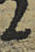2
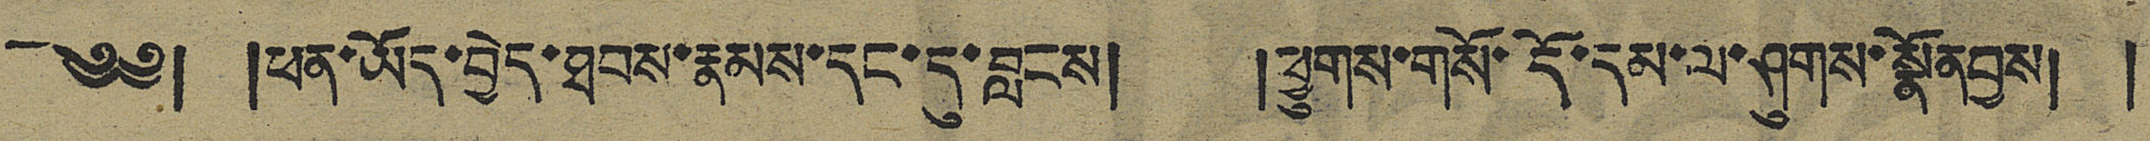༄༅། །ཕན་ཡོད་བྱེད་ཐབས་རྣམས་དང་དུ་བླངས། །ཕྱུགས་གསོ་དོ་དམ་ལ་ཤུགས་སྣོན་བྱས། །
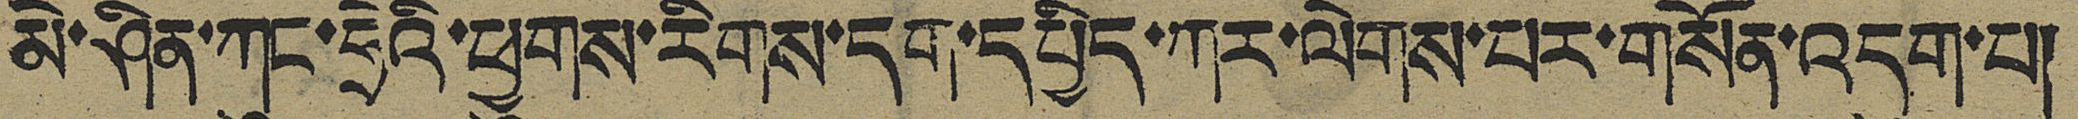མེ་ཤིན་ཀུང་ཧྲེའི་ཕྱུགས་རིགས་དག་དཔྱིད་ཀར་ལེགས་པར་གསོན་འདུག་པ།
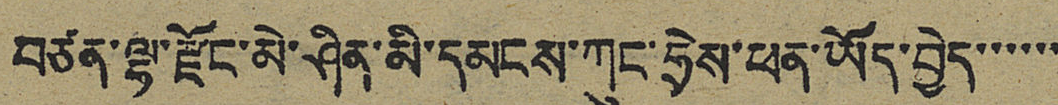བཙན་ལྷ་རྫོང་མེ་ཤིན་མི་དམངས་ཀུང་ཧྲེས་ཕན་ཡོད་བྱེད་་་་་་
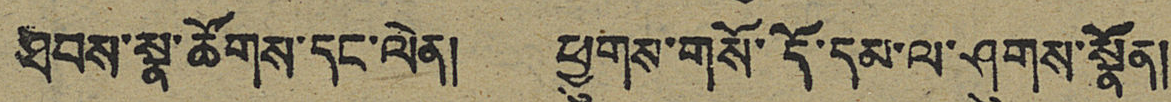ཐབས་སྣ་ཚོགས་དང་ལེན། ཕྱུགས་གསོ་དོ་དམ་ལ་ཤུགས་སྣོན།
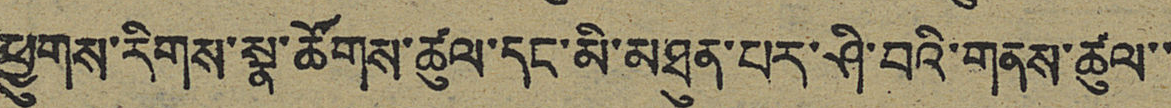ཕྱུགས་རིགས་སྣ་ཚོགས་ཚུལ་དང་མི་མཐུན་པར་ཤི་བའི་གནས་ཚུལ་་
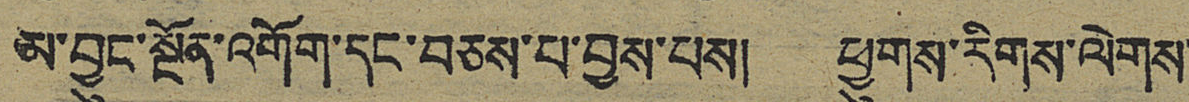མ་བྱུང་སྔོན་འགོག་དང་བཅས་པ་བྱས་པས། ཕྱུགས་རིགས་ལེགས་
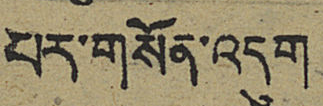པར་གསོན་འདུག
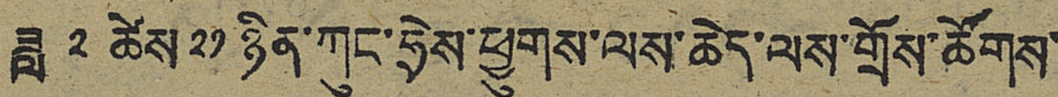ཟླ ༢ ཚེས ༢༡ ཉིན་ཀུང་ཧྲེས་ཕྱུགས་ལས་ཆེད་ལས་གྲོས་ཚོགས་
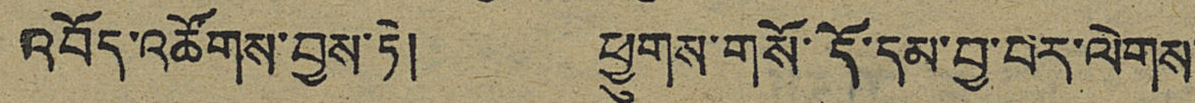འབོད་འཚོགས་བྱས་ཏེ། ཕྱུགས་གསོ་དོ་དམ་བྱ་པར་ལེགས་
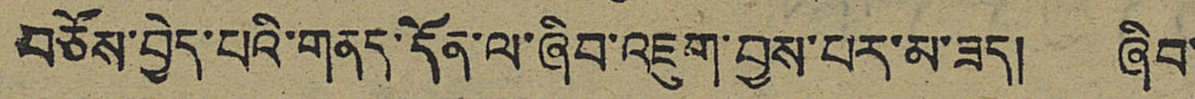བཅོས་བྱེད་པའི་གནད་དོན་ལ་ཞིབ་འཇུག་བྱས་པར་མ་ཟད། ཞིབ་
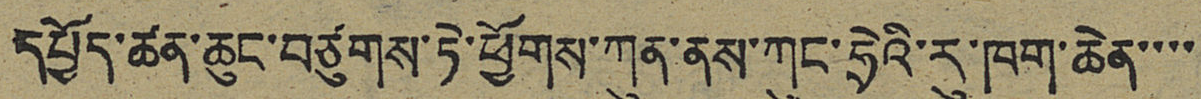དཔྱོད་ཚན་ཆུང་བཙུགས་ཏེ་ཕྱོགས་ཀུན་ནས་ཀུང་ཧྲེའི་རུ་ཁག་ཆེན་་་་
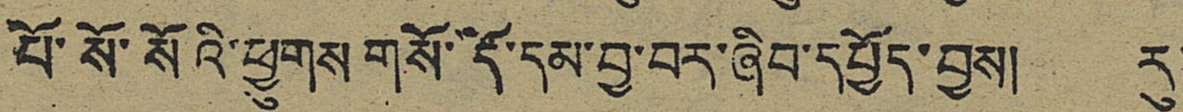པོ་སོ་སོའི་ཕྱུགས གསོ་དོ་དམ་བྱ་བར་ཞིབ་དཔྱོད་བྱས། རུ་
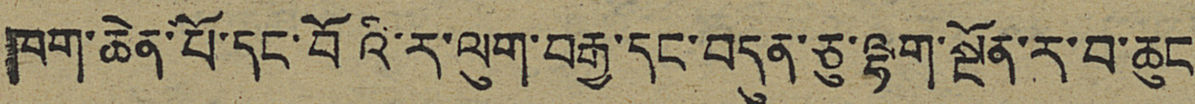ཁག་ཆེན་པོ་དང་བོའི་ར་ལུག་བརྒྱ་དང་བདུན་ཅུ་ལྷག་སྔོན་ར་བ་ཆུང
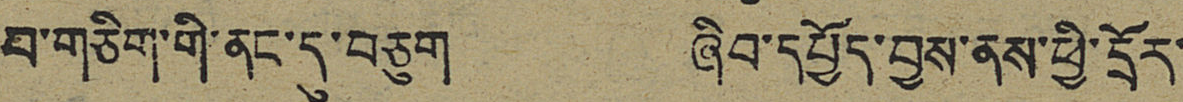བ་གཅིག་གི་ནང་དུ་བཅུག ཞིབ་དཔྱོད་བྱས་ནས་ཕྱི་དྲོར་
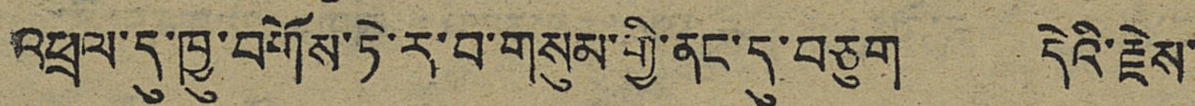འཕྲལ་དུ་ཁྱུ་བགོས་ཏེ་ར་བ་གསུམ་གྱི་ནང་དུ་བཅུག དེའི་རྗེས་
